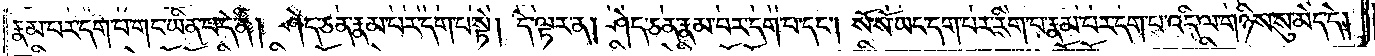རྣམ་པར་དག་པ་གང་ཡིན་པ་དེ་ནི། ཤེད་ཅན་རྣམ་པར་དག་པ་སྟེ། དེ་ལྟར་ན། ཤེད་ཅན་རྣམ་པར་དག་པ་དང༌། སོ་སོ་ཡང་དག་པར་རིག་པ་རྣམ་པར་དག་པ་འདི་ལ་གཉིས་སུ་མེད་དེ།
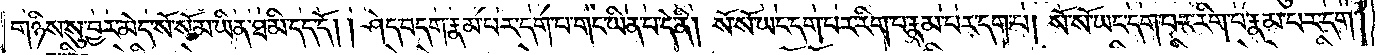གཉིས་སུ་བྱར་མེད་སོ་སོ་མ་ཡིན་ཐ་མི་དད་དོ། །ཤེད་བདག་རྣམ་པར་དག་པ་གང་ཡིན་པ་དེ་ནི། སོ་སོ་ཡང་དག་པར་རིག་པ་རྣམ་པར་དག་པ། སོ་སོ་ཡང་དག་པར་རིག་པ་རྣམ་པར་དག་
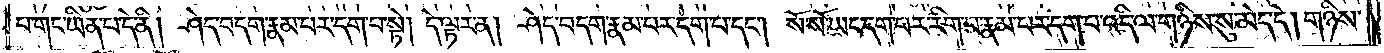པ་གང་ཡིན་པ་དེ་ནི། ཤེད་བདག་རྣམ་པར་དག་པ་སྟེ། དེ་ལྟར་ན། ཤེད་བདག་རྣམ་པར་དག་པ་དང༌། སོ་སོ་ཡང་དག་པར་རིག་པ་རྣམ་པར་དག་པ་འདི་ལ་གཉིས་སུ་མེད་དེ། གཉིས་
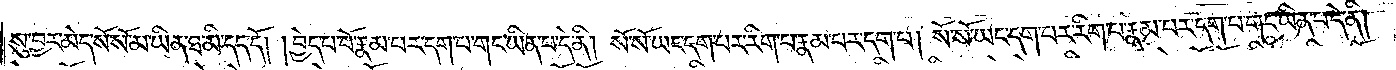སུ་བྱར་མེད་སོ་སོ་མ་ཡིན་ཐ་མི་དད་དོ། །བྱེད་པ་པོ་རྣམ་པར་དག་པ་གང་ཡིན་པ་དེ་ནི། སོ་སོ་ཡང་དག་པར་རིག་པ་རྣམ་པར་དག་པ། སོ་སོ་ཡང་དག་པར་རིག་པ་རྣམ་པར་དག་པ་གང་ཡིན་པ་དེ་ནི།
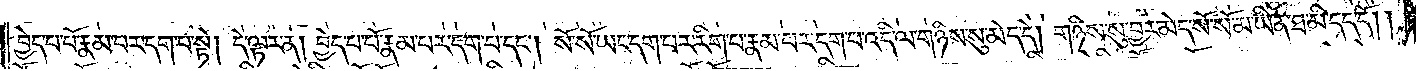བྱེད་པ་པོ་རྣམ་པར་དག་པ་སྟེ། དེ་ལྟར་ན། བྱེད་པ་པོ་རྣམ་པར་དག་པ་དང༌། སོ་སོ་ཡང་དག་པར་རིག་པ་རྣམ་པར་དག་པ་འདི་ལ་གཉིས་སུ་མེད་དེ། གཉིས་སུ་བྱར་མེད་སོ་སོ་མ་ཡིན་ཐ་མི་དད་དོ། །
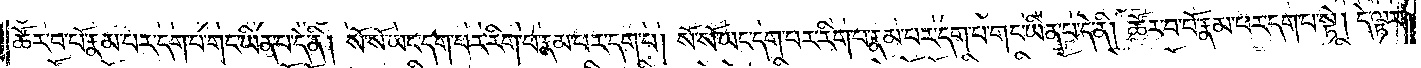ཚོར་བ་པོ་རྣམ་པར་དག་པ་གང་ཡིན་པ་དེ་ནི། སོ་སོ་ཡང་དག་པར་རིག་པ་རྣམ་པར་དག་པ། སོ་སོ་ཡང་དག་པར་རིག་པ་རྣམ་པར་དག་པ་གང་ཡིན་པ་དེ་ནི། ཚོར་བ་པོ་རྣམ་པར་དག་པ་སྟེ། དེ་ལྟར་
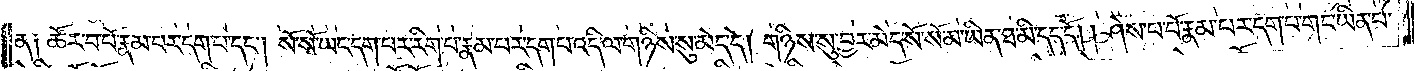ན༑ ཚོར་བ་པོ་རྣམ་པར་དག་པ་དང༌། སོ་སོ་ཡང་དག་པར་རིག་པ་རྣམ་པར་དག་པ་འདི་ལ་གཉིས་སུ་མེད་དེ། གཉིས་སུ་བྱར་མེད་སོ་སོ་མ་ཡིན་ཐ་མི་དད་དོ། །ཤེས་པ་པོ་རྣམ་པར་དག་པ་གང་ཡིན་པ་
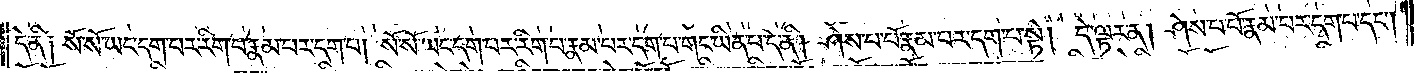དེ་ནི། སོ་སོ་ཡང་དག་པར་རིག་པ་རྣམ་པར་དག་པ། སོ་སོ་ཡང་དག་པར་རིག་པ་རྣམ་པར་དག་པ་གང་ཡིན་པ་དེ་ནི། ཤེས་པ་པོ་རྣམ་པར་དག་པ་སྟེ། དེ་ལྟར་ན། ཤེས་པ་པོ་རྣམ་པར་དག་པ་དང༌།
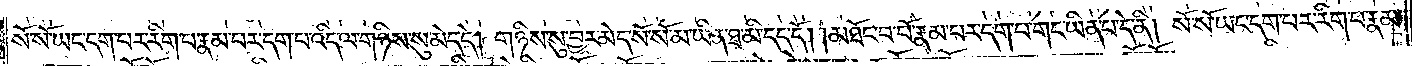སོ་སོ་ཡང་དག་པར་རིག་པ་རྣམ་པར་དག་པ་འདི་ལ་གཉིས་སུ་མེད་དེ། གཉིས་སུ་བྱར་མེད་སོ་སོ་མ་ཡིན་ཐ་མི་དད་དོ། །མཐོང་བ་པོ་རྣམ་པར་དག་པ་གང་ཡིན་པ་དེ་ནི། སོ་སོ་ཡང་དག་པར་རིག་པ་རྣམ་
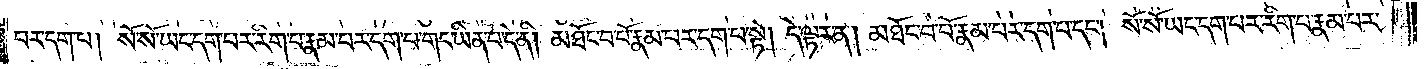པར་དག་པ། སོ་སོ་ཡང་དག་པར་རིག་པ་རྣམ་པར་དག་པ་གང་ཡིན་པ་དེ་ནི། མཐོང་བ་པོ་རྣམ་པར་དག་པ་སྟེ། དེ་ལྟར་ན། མཐོང་བ་པོ་རྣམ་པར་དག་པ་དང༌། སོ་སོ་ཡང་དག་པར་རིག་པ་རྣམ་པར་
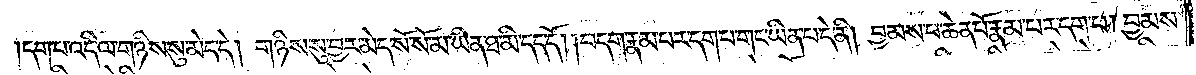དག་པ་འདི་ལ་གཉིས་སུ་མེད་དེ། གཉིས་སུ་བྱར་མེད་སོ་སོ་མ་ཡིན་ཐ་མི་དད་དོ། །བདག་རྣམ་པར་དག་པ་གང་ཡིན་པ་དེ་ནི། བྱམས་པ་ཆེན་པོ་རྣམ་པར་དག་པ། བྱམས་
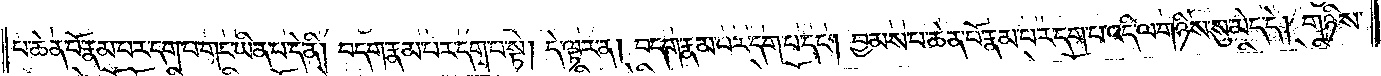པ་ཆེན་པོ་རྣམ་པར་དག་པ་གང་ཡིན་པ་དེ་ནི། བདག་རྣམ་པར་དག་པ་སྟེ། དེ་ལྟར་ན། བདག་རྣམ་པར་དག་པ་དང༌། བྱམས་པ་ཆེན་པོ་རྣམ་པར་དག་པ་འདི་ལ་གཉིས་སུ་མེད་དེ། གཉིས་
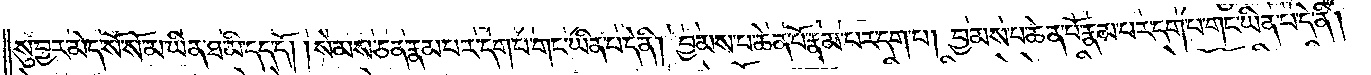སུ་བྱར་མེད་སོ་སོ་མ་ཡིན་ཐ་མི་དད་དོ། །སེམས་ཅན་རྣམ་པར་དག་པ་གང་ཡིན་པ་དེ་ནི། བྱམས་པ་ཆེན་པོ་རྣམ་པར་དག་པ། བྱམས་པ་ཆེན་པོ་རྣམ་པར་དག་པ་གང་ཡིན་པ་དེ་ནི།
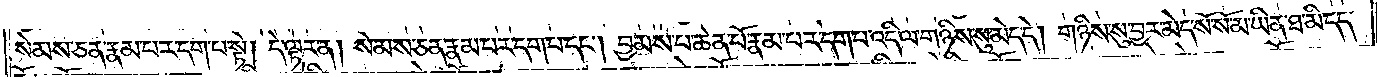སེམས་ཅན་རྣམ་པར་དག་པ་སྟེ། དེ་ལྟར་ན། སེམས་ཅན་རྣམ་པར་དག་པ་དང༌། བྱམས་པ་ཆེན་པོ་རྣམ་པར་དག་པ་འདི་ལ་གཉིས་སུ་མེད་དེ། གཉིས་སུ་བྱར་མེད་སོ་སོ་མ་ཡིན་ཐ་མི་དད་
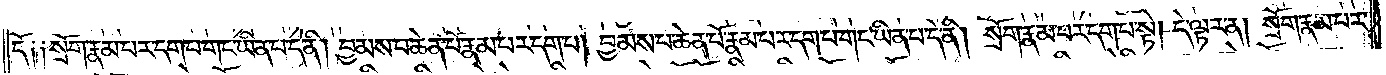དོ༑ ༑སྲོག་རྣམ་པར་དག་པ་གང་ཡིན་པ་དེ་ནི། བྱམས་པ་ཆེན་པོ་རྣམ་པར་དག་པ། བྱམས་པ་ཆེན་པོ་རྣམ་པར་དག་པ་གང་ཡིན་པ་དེ་ནི། སྲོག་རྣམ་པར་དག་པ་སྟེ། དེ་ལྟར་ན། སྲོག་རྣམ་པར་
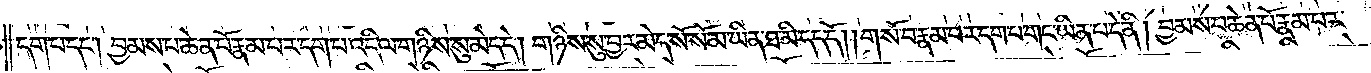དག་པ་དང༌། བྱམས་པ་ཆེན་པོ་རྣམ་པར་དག་པ་འདི་ལ་གཉིས་སུ་མེད་དེ། གཉིས་སུ་བྱར་མེད་སོ་སོ་མ་ཡིན་ཐ་མི་དད་དོ། །གསོ་བ་རྣམ་པར་དག་པ་གང་ཡིན་པ་དེ་ནི། བྱམས་པ་ཆེན་པོ་རྣམ་པར་
